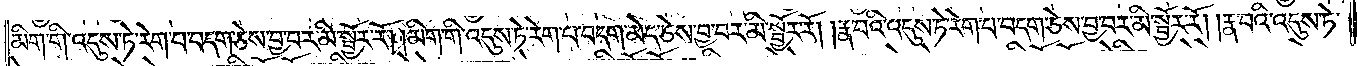མིག་གི་འདུས་ཏེ་རེག་པ་བདག་ཅེས་བྱ་བར་མི་སྦྱོར་རོ། །མིག་གི་འདུས་ཏེ་རེག་པ་བདག་མེད་ཅེས་བྱ་བར་མི་སྦྱོར་རོ། །རྣ་བའི་འདུས་ཏེ་རེག་པ་བདག་ཅེས་བྱ་བར་མི་སྦྱོར་རོ། །རྣ་བའི་འདུས་ཏེ་
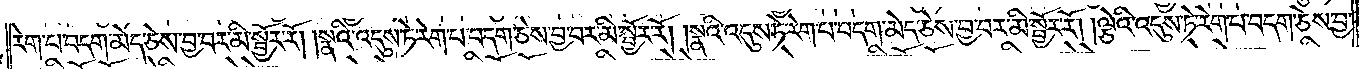རེག་པ་བདག་མེད་ཅེས་བྱ་བར་མི་སྦྱོར་རོ། །སྣའི་འདུས་ཏེ་རེག་པ་བདག་ཅེས་བྱ་བར་མི་སྦྱོར་རོ། །སྣའི་འདུས་ཏེ་རེག་པ་བདག་མེད་ཅེས་བྱ་བར་མི་སྦྱོར་རོ། །ལྕེའི་འདུས་ཏེ་རེག་པ་བདག་ཅེས་བྱ་
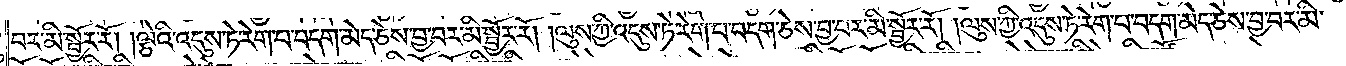བར་མི་སྦྱོར་རོ། །ལྕེའི་འདུས་ཏེ་རེག་པ་བདག་མེད་ཅེས་བྱ་བར་མི་སྦྱོར་རོ། །ལུས་ཀྱི་འདུས་ཏེ་རེག་པ་བདག་ཅེས་བྱ་བར་མི་སྦྱོར་རོ། །ལུས་ཀྱི་འདུས་ཏེ་རེག་པ་བདག་མེད་ཅེས་བྱ་བར་མི་
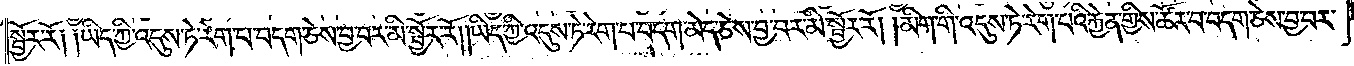སྦྱོར་རོ། །ཡིད་ཀྱི་འདུས་ཏེ་རེག་པ་བདག་ཅེས་བྱ་བར་མི་སྦྱོར་རོ། །ཡིད་ཀྱི་འདུས་ཏེ་རེག་པ་བདག་མེད་ཅེས་བྱ་བར་མི་སྦྱོར་རོ། །མིག་གི་འདུས་ཏེ་རེག་པའི་རྐྱེན་གྱིས་ཚོར་བ་བདག་ཅེས་བྱ་བར་
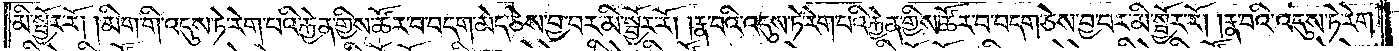མི་སྦྱོར་རོ། །མིག་གི་འདུས་ཏེ་རེག་པའི་རྐྱེན་གྱིས་ཚོར་བ་བདག་མེད་ཅེས་བྱ་བར་མི་སྦྱོར་རོ། །རྣ་བའི་འདུས་ཏེ་རེག་པའི་རྐྱེན་གྱིས་ཚོར་བ་བདག་ཅེས་བྱ་བར་མི་སྦྱོར་རོ། །རྣ་བའི་འདུས་ཏེ་རེག་
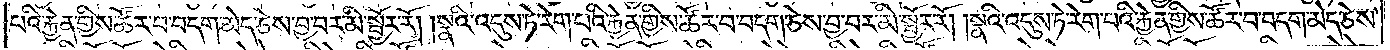པའི་རྐྱེན་གྱིས་ཚོར་བ་བདག་མེད་ཅེས་བྱ་བར་མི་སྦྱོར་རོ། །སྣའི་འདུས་ཏེ་རེག་པའི་རྐྱེན་གྱིས་ཚོར་བ་བདག་ཅེས་བྱ་བར་མི་སྦྱོར་རོ། །སྣའི་འདུས་ཏེ་རེག་པའི་རྐྱེན་གྱིས་ཚོར་བ་བདག་མེད་ཅེས་
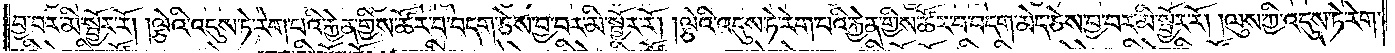བྱ་བར་མི་སྦྱོར་རོ། །ལྕེའི་འདུས་ཏེ་རེག་པའི་རྐྱེན་གྱིས་ཚོར་བ་བདག་ཅེས་བྱ་བར་མི་སྦྱོར་རོ། །ལྕེའི་འདུས་ཏེ་རེག་པའི་རྐྱེན་གྱིས་ཚོར་བ་བདག་མེད་ཅེས་བྱ་བར་མི་སྦྱོར་རོ། །ལུས་ཀྱི་འདུས་ཏེ་རེག་
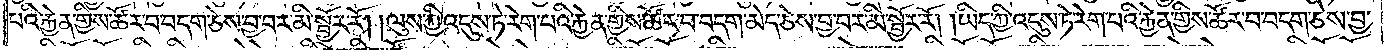པའི་རྐྱེན་གྱིས་ཚོར་བ་བདག་ཅེས་བྱ་བར་མི་སྦྱོར་རོ། །ལུས་ཀྱི་འདུས་ཏེ་རེག་པའི་རྐྱེན་གྱིས་ཚོར་བ་བདག་མེད་ཅེས་བྱ་བར་མི་སྦྱོར་རོ། །ཡིད་ཀྱི་འདུས་ཏེ་རེག་པའི་རྐྱེན་གྱིས་ཚོར་བ་བདག་ཅེས་བྱ་
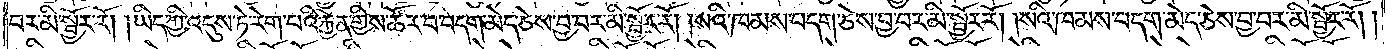བར་མི་སྦྱོར་རོ། །ཡིད་ཀྱི་འདུས་ཏེ་རེག་པའི་རྐྱེན་གྱིས་ཚོར་བ་བདག་མེད་ཅེས་བྱ་བར་མི་སྦྱོར་རོ། །སའི་ཁམས་བདག་ཅེས་བྱ་བར་མི་སྦྱོར་རོ། །སའི་ཁམས་བདག་མེད་ཅེས་བྱ་བར་མི་སྦྱོར་རོ། །
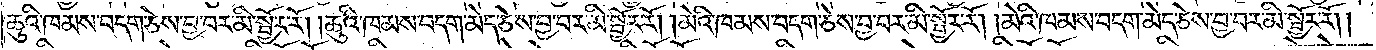ཆུའི་ཁམས་བདག་ཅེས་བྱ་བར་མི་སྦྱོར་རོ། །ཆུའི་ཁམས་བདག་མེད་ཅེས་བྱ་བར་མི་སྦྱོར་རོ། །མེའི་ཁམས་བདག་ཅེས་བྱ་བར་མི་སྦྱོར་རོ། །མེའི་ཁམས་བདག་མེད་ཅེས་བྱ་བར་མི་སྦྱོར་རོ། །
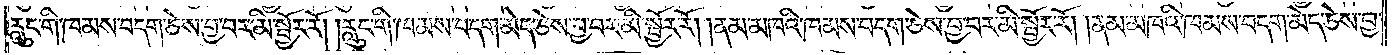རླུང་གི་ཁམས་བདག་ཅེས་བྱ་བར་མི་སྦྱོར་རོ། །རླུང་གི་ཁམས་བདག་མེད་ཅེས་བྱ་བར་མི་སྦྱོར་རོ། །ནམ་མཁའི་ཁམས་བདག་ཅེས་བྱ་བར་མི་སྦྱོར་རོ། །ནམ་མཁའི་ཁམས་བདག་མེད་ཅེས་བྱ་
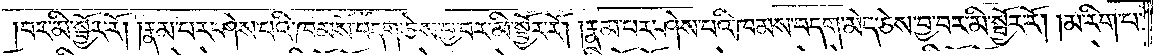བར་མི་སྦྱོར་རོ། །རྣམ་པར་ཤེས་པའི་ཁམས་བདག་ཅེས་བྱ་བར་མི་སྦྱོར་རོ། །རྣམ་པར་ཤེས་པའི་ཁམས་བདག་མེད་ཅེས་བྱ་བར་མི་སྦྱོར་རོ། །མ་རིག་པ་
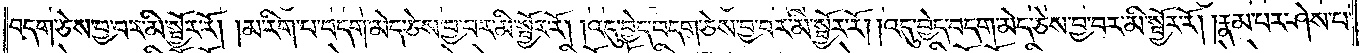བདག་ཅེས་བྱ་བར་མི་སྦྱོར་རོ། །མ་རིག་པ་བདག་མེད་ཅེས་བྱ་བར་མི་སྦྱོར་རོ། །འདུ་བྱེད་བདག་ཅེས་བྱ་བར་མི་སྦྱོར་རོ། །འདུ་བྱེད་བདག་མེད་ཅེས་བྱ་བར་མི་སྦྱོར་རོ། །རྣམ་པར་ཤེས་པ་
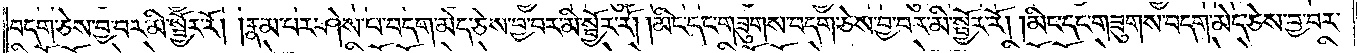བདག་ཅེས་བྱ་བར་མི་སྦྱོར་རོ། །རྣམ་པར་ཤེས་པ་བདག་མེད་ཅེས་བྱ་བར་མི་སྦྱོར་རོ། །མིང་དང་གཟུགས་བདག་ཅེས་བྱ་བར་མི་སྦྱོར་རོ། །མིང་དང་གཟུགས་བདག་མེད་ཅེས་བྱ་བར་
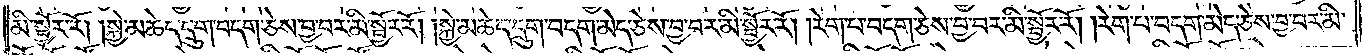མི་སྦྱོར་རོ། །སྐྱེ་མཆེད་དྲུག་བདག་ཅེས་བྱ་བར་མི་སྦྱོར་རོ། །སྐྱེ་མཆེད་དྲུག་བདག་མེད་ཅེས་བྱ་བར་མི་སྦྱོར་རོ། །རེག་པ་བདག་ཅེས་བྱ་བར་མི་སྦྱོར་རོ། །རེག་པ་བདག་མེད་ཅེས་བྱ་བར་མི་
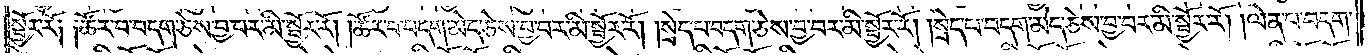སྦྱོར་རོ༑ ༑ཚོར་བ་བདག་ཅེས་བྱ་བར་མི་སྦྱོར་རོ། །ཚོར་བ་བདག་མེད་ཅེས་བྱ་བར་མི་སྦྱོར་རོ། །སྲེད་པ་བདག་ཅེས་བྱ་བར་མི་སྦྱོར་རོ། །སྲེད་པ་བདག་མེད་ཅེས་བྱ་བར་མི་སྦྱོར་རོ། །ལེན་པ་བདག་
